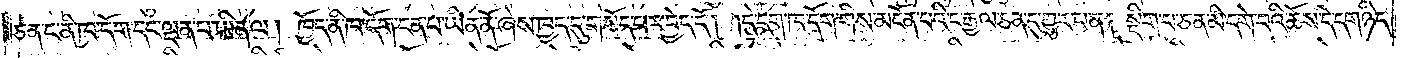ཅན་ང་ནི་ཁ་དོག་དང་ལྡན་པ་ཡིན་ལ། ཁྱོད་ནི་ཁ་དོག་ངན་པ་ཡིན་ནོ་ཞེས་ཁྱད་དུ་གསོད་པར་བྱེད་དོ། །དེ་དག་ཁ་དོག་གིས་མངོན་པའི་ང་རྒྱལ་ཅན་དུ་གྱུར་པ་ན། སྡིག་པ་ཅན་མི་དགེ་བའི་ཆོས་དེ་དག་ཉིད་
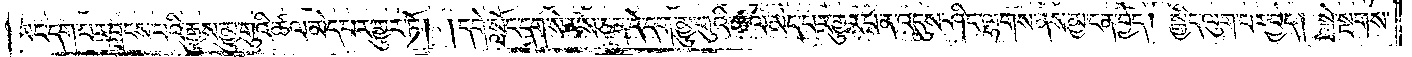ཡང་དག་པར་བླངས་པའི་རྒྱུས་མྱུ་གུའི་ཚལ་མེད་པར་གྱུར་ཏོ། །དགེ་སློང་དག་སེམས་ཅན་དེ་དག་མྱུ་གུའི་ཚལ་མེད་པར་གྱུར་པ་ན་འདུས་ཤིང་ལྷགས་ནས་མྱ་ངན་བྱེད། སྒྱིད་ལུག་པར་བྱེད། སྨྲེ་སྔགས་
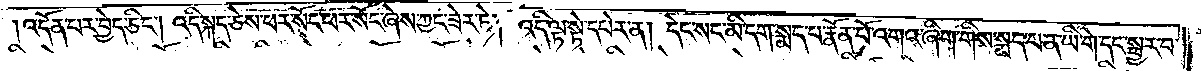།འདོན་པར་བྱེད་ཅིང༌། འདི་སྐད་ཅེས་ཕར་སོང་ཕར་སོང་ཞེས་ཀྱང་ཟེར་ཏེ། འདི་ལྟ་སྟེ་དཔེར་ན། དེང་སང་མི་དག་སྨད་པ་རྣོན་པོ་འགའ་ཞིག་གིས་སྨད་པ་ན་ཡི་གེ་དང་སྦྱར་བ་
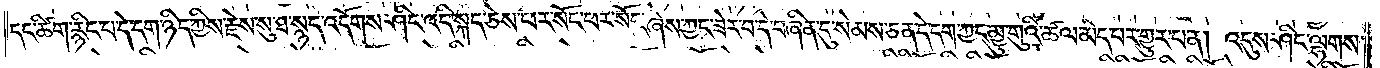དང་ཚིག་རྙིང་པ་དེ་དག་ཉིད་ཀྱིས་རྗེས་སུ་ཐ་སྙད་འདོགས་ཤིང་འདི་སྐད་ཅེས་ཕར་སོང་ཕར་སོང་ཞེས་ཀྱང་ཟེར་བ་དེ་བཞིན་དུ་སེམས་ཅན་དེ་དག་ཀྱང་མྱུ་གུའི་ཚལ་མེད་པར་གྱུར་པ་ན། འདུས་ཤིང་ལྷགས་
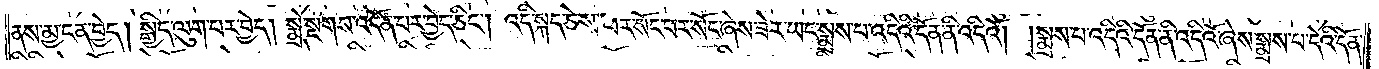ནས་མྱ་ངན་བྱེད། སྒྱིད་ལུག་པར་བྱེད། སྨྲེ་སྔགས་འདོན་པར་བྱེད་ཅིང༌། འདི་སྐད་ཅེས་ཕར་སོང་ཕར་སོང་ཞེས་ཟེར་ཡང་སྨྲས་པ་འདིའི་དོན་ནི་འདིའོ། །སྨྲས་པ་འདིའི་དོན་ནི་འདིའོ་ཞེས་སྨྲས་པ་དེའི་དོན་
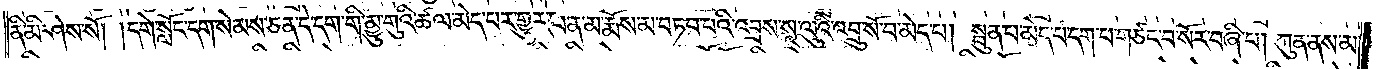ནི་མི་ཤེས་སོ། །དགེ་སློང་དག་སེམས་ཅན་དེ་དག་གི་མྱུ་གུའི་ཚལ་མེད་པར་གྱུར་པ་ན་མ་རྨོས་མ་བཏབ་པའི་འབྲས་སཱ་ལུའི་འབྲུ་སོ་བ་མེད་པ། སྦུན་པ་མེད་པ་དག་པ་གཙང་བ་སོར་བཞི་པ། ཀུན་ནས་མ་
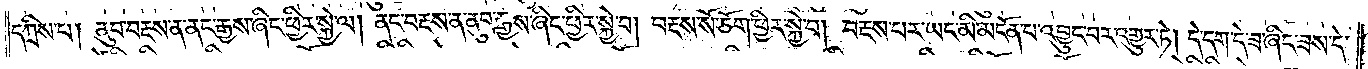དཀྲིས་པ། ནུབ་བརྔས་ན་ནང་རྒྱས་ཞིང་ཕྱིར་སྐྱེ་ལ། ནང་བརྔས་ན་ནུབ་རྒྱས་ཞིང་ཕྱིར་སྐྱེ་བ། བརྔས་སོ་ཅོག་ཕྱིར་སྐྱེ་བ། བརྔས་པར་ཡང་མི་མངོན་པ་འབྱུང་བར་འགྱུར་ཏེ། དེ་དག་དེ་ཟ་ཞིང་ཟས་དེ་
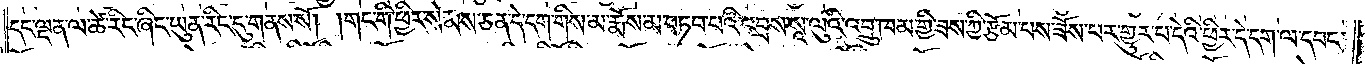དང་ལྡན་ལ་ཚེ་རིང་ཞིང་ཡུན་རིང་དུ་གནས་སོ། །གང་གི་ཕྱིར་སེམས་ཅན་དེ་དག་གིས་མ་རྨོས་མ་བཏབ་པའི་འབྲས་སཱ་ལུའི་འབྲུ་ཁམ་གྱི་ཟས་ཀྱི་རྩོམ་པས་ཟོས་པར་གྱུར་པ་དེའི་ཕྱིར་དེ་དག་ལ་དབང་
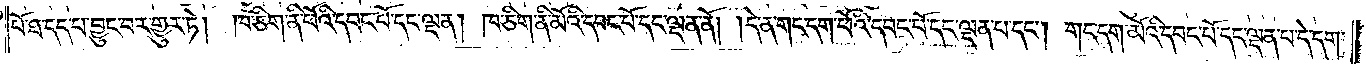པོ་ཐ་དད་པ་བྱུང་བར་གྱུར་ཏེ། ཁ་ཅིག་ནི་ཕོའི་དབང་པོ་དང་ལྡན། ཁ་ཅིག་ནི་མོའི་དབང་པོ་དང་ལྡན་ནོ། །དེ་ན་གང་དག་ཕོའི་དབང་པོ་དང་ལྡན་པ་དང༌། གང་དག་མོའི་དབང་པོ་དང་ལྡན་པ་དེ་དག་
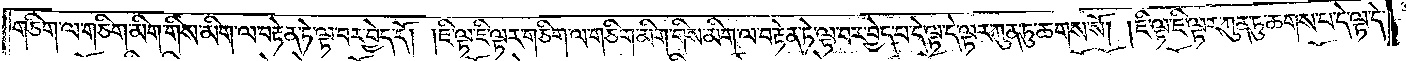གཅིག་ལ་གཅིག་མིག་གིས་མིག་ལ་བརྟེན་ཏེ་ལྟ་བར་བྱེད་དོ། །ཇི་ལྟ་ཇི་ལྟར་གཅིག་ལ་གཅིག་མིག་གིས་མིག་ལ་བརྟེན་ཏེ་ལྟ་བར་བྱེད་པ་དེ་ལྟ་དེ་ལྟར་ཀུན་ཏུ་ཆགས་སོ། །ཇི་ལྟ་ཇི་ལྟར་ཀུན་ཏུ་ཆགས་པ་དེ་ལྟ་དེ་
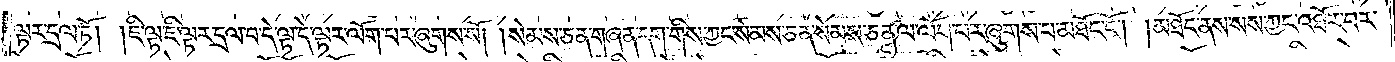ལྟར་དྲལ་ཏོ། །ཇི་ལྟ་ཇི་ལྟར་དྲལ་བ་དེ་ལྟ་དེ་ལྟར་ལོག་པར་ཞུགས་སོ། །སེམས་ཅན་གཞན་དག་གིས་ཀྱང་སེམས་ཅན་སེམས་ཅན་ལ་ལོག་པར་ཞུགས་པ་མཐོང་ངོ༌། །མཐོང་ནས་སས་ཀྱང་འཐོར་བར་
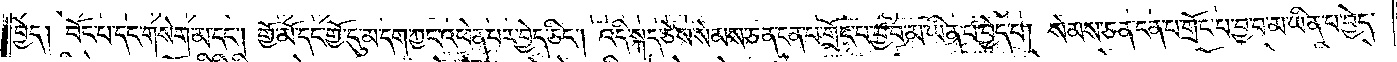བྱེད། བོང་པ་དང་གསེག་མ་དང༌། གྱོ་མོ་དང་གྱོ་དུ་མ་དག་ཀྱང་འཕེན་པར་བྱེད་ཅིང༌། འདི་སྐད་ཅེས་སེམས་ཅན་ངན་པ་གྲོང་པ་བྱ་བ་མ་ཡིན་པ་བྱེད་པ། སེམས་ཅན་ངན་པ་གྲོང་པ་བྱ་བ་མ་ཡིན་པ་བྱེད་
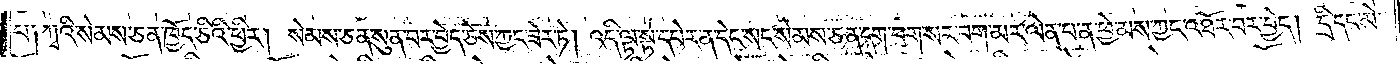པ༑ ཀྭའི་སེམས་ཅན་ཁྱོད་ཅིའི་ཕྱིར། སེམས་ཅན་སུན་པར་བྱེད་ཅེས་ཀྱང་ཟེར་ཏེ། འདི་ལྟ་སྟེ་དཔེར་ན་དེང་སང་སེམས་ཅན་དག་བག་སར་བག་མར་ལེན་པ་ན་ཕྱེ་མས་ཀྱང་འཐོར་བར་བྱེད། དྲི་དང་མེ་
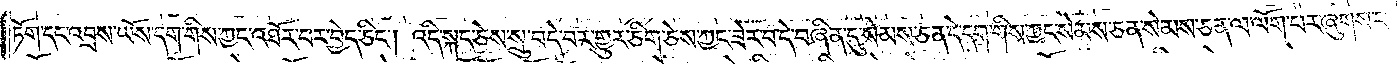ཏོག་དང་འབྲས་ཡོས་དག་གིས་ཀྱང་འཐོར་བར་བྱེད་ཅིང༌། འདི་སྐད་ཅེས་སྲུ་བདེ་བར་གྱུར་ཅིག་ཅེས་ཀྱང་ཟེར་བ་དེ་བཞིན་དུ་སེམས་ཅན་དེ་དག་གིས་ཀྱང་སེམས་ཅན་ལ་ལོག་པར་ཞུགས་པ་
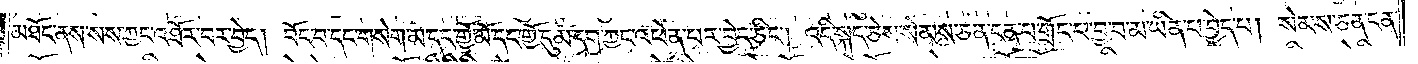མཐོང་ནས་སས་ཀྱང་འཐོར་བར་བྱེད། བོང་བ་དང་གསེག་མ་དང་གྱོ་མོ་དང་གྱོ་དུམ་དག་ཀྱང་འཕེན་པར་བྱེད་ཅིང༌། འདི་སྐད་ཅེས་སེམས་ཅན་ངན་པ་གྲོང་པ་བྱ་བ་མ་ཡིན་པ་བྱེད་པ། སེམས་ཅན་ངན་
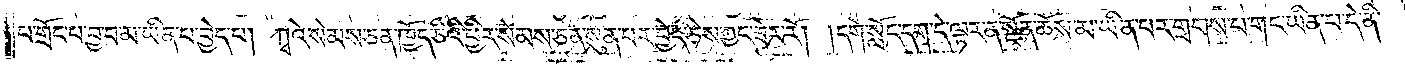པ་གྲོང་པ་བྱ་བ་མ་ཡིན་པ་བྱེད་པ། ཀྭའེ་སེམས་ཅན་ཁྱོད་ཅིའི་ཕྱིར་སེམས་ཅན་སུན་པར་བྱེད་ཅེས་ཀྱང་ཟེར་རོ། །དགེ་སློང་དག་དེ་ལྟར་ན་སྔོན་ཆོས་མ་ཡིན་པར་གྲགས་པ་གང་ཡིན་པ་དེ་ནི་
